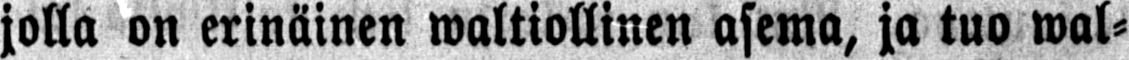jolla on erinäinen waltiollinen asema, ja tuo wal-
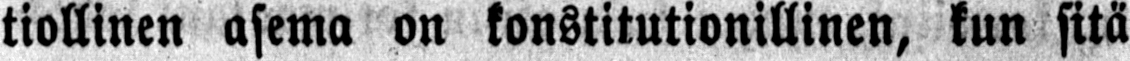tiollinen asema on konstitutionillinen, kun sitä
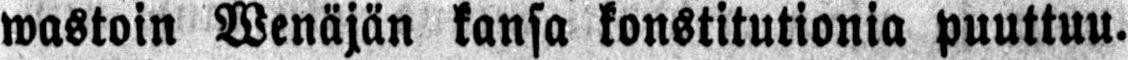wastoin Wenäjän kansa konstitutionia puuttuu.
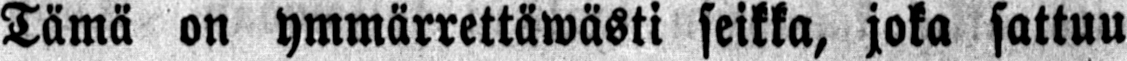Tämä on ymmärrettäwästi seikka, joka sattuu
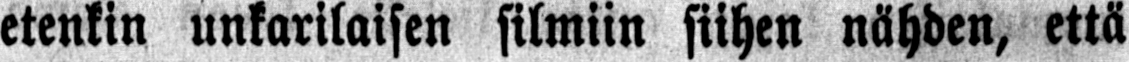etenkin unkarilaisen silmiin siihen nähden, että
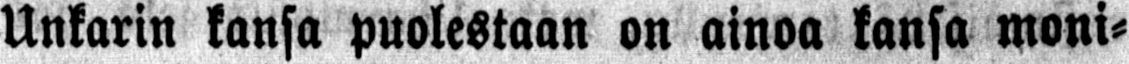Unkarin kansa puolestaan on ainoa kansa moni-
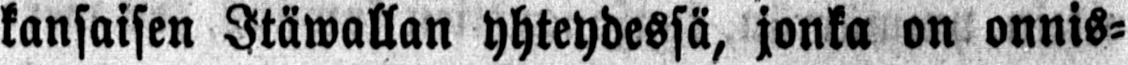kansaisen Itäwallan yhteydessä, jonka on onnis-
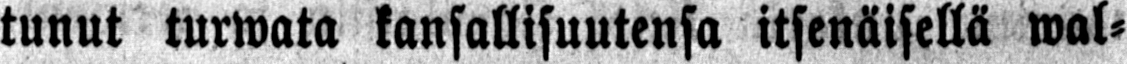tunut turwata kansallisuutensa itsenäisellä wal-
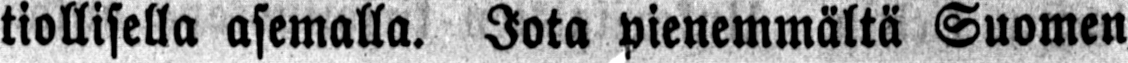tiollisella asemalla. Jota pienemmältä Suomen
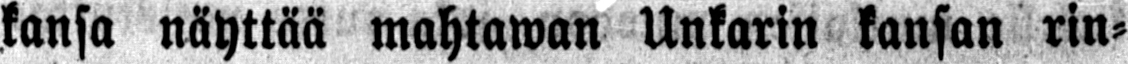kansa näyttää mahtawan Unkarin kansan rin-
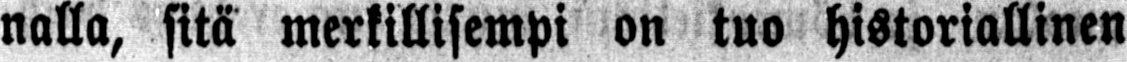nalla, sitä merkillisempi on tuo historiallinen
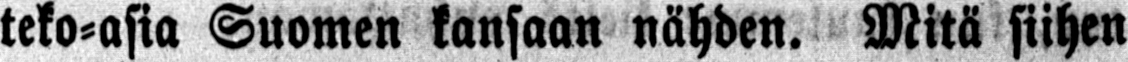teko-asia Suomen kansaan nähden. Mitä siihen
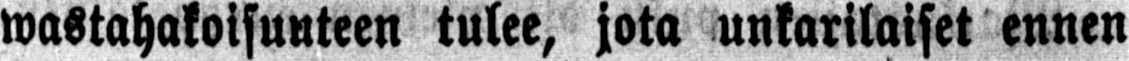wastahakoisuuteen tulee, jota unkarilaiset ennen
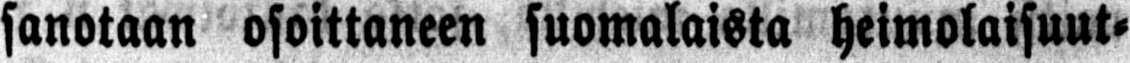sanotaan osoittaneen suomalaista heimolaisuut-
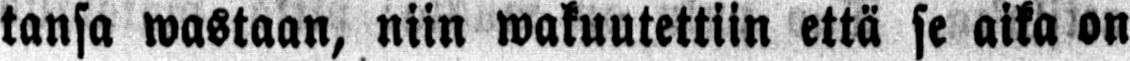tansa wastaan, niin wakuutettiin että se aika on
